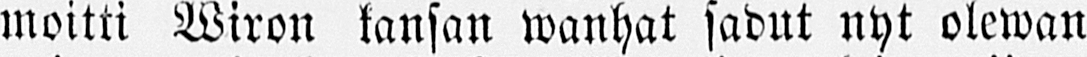moitti Wiron kansan wanhat sadut nyt olewan
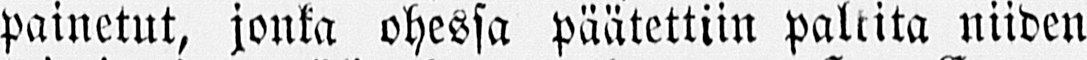painetut, jonka ohessa päätettiin palkita niiden
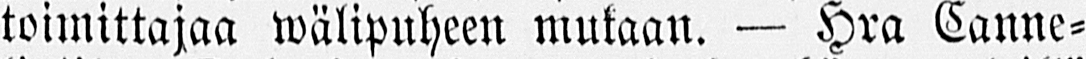toimittajaa wälipuheen mukaan. — Hra Canne-
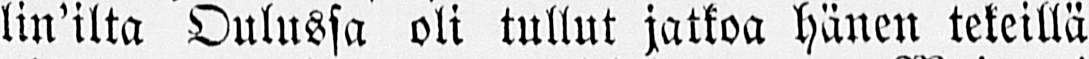lin'ilta Oulussa oli tullut jatkoa hänen tekeillä
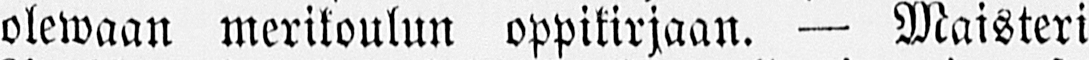olewaan merikoulun oppikirjaan. — Maisteri
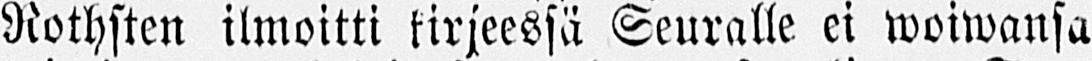Rothsten ilmoitti kirjeessä Seuralle ei woiwansa
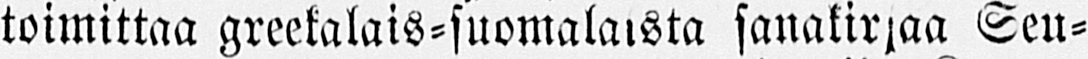toimittaa greekalais-suomalaksta sanakirjaa Seu-
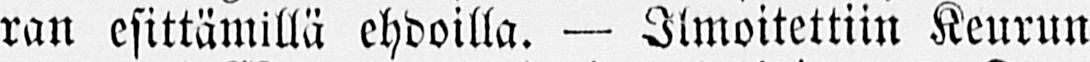ran esittämillä ehdoilla. — Ilmoitettiin Keurun
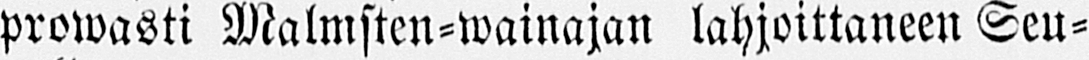prowasti Malmsten-wainajan lahjoittaneen Seu-
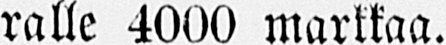ralle 4000 markkaa.
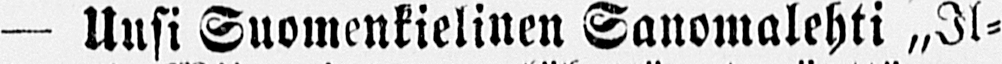— Uusi Suomenkielinen Sanomalehti Il-
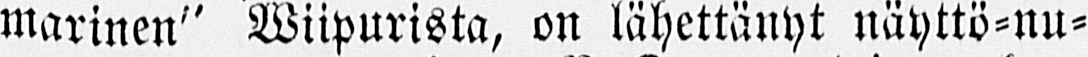marinen" Wiipurista, on lähettänyt näyttö-nu-
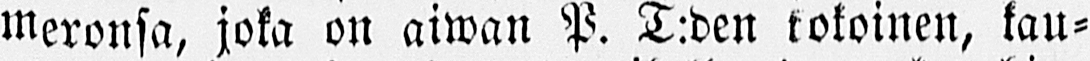meronsa, joka on aiwan P. T:den kokoinen, kau-
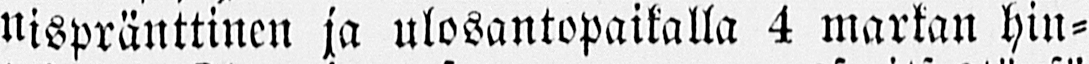nispränttinen ja ulosantopaikalla 4 markan hin-
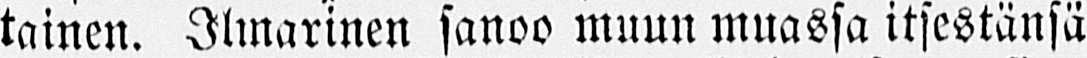tainen. Ilmarinen sanoo muun muassa itsestänsä
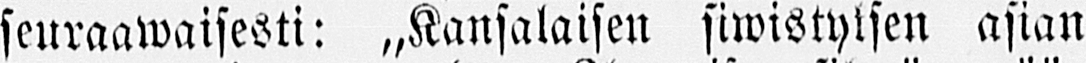seuraawaisesti: siwistyksen asian
